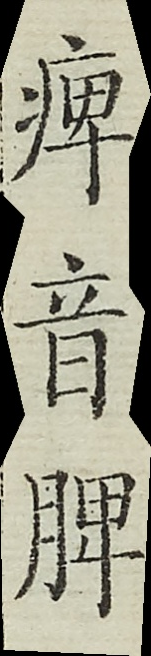痺音脾
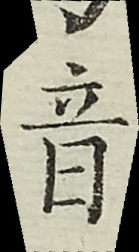音
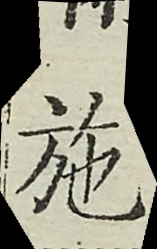施
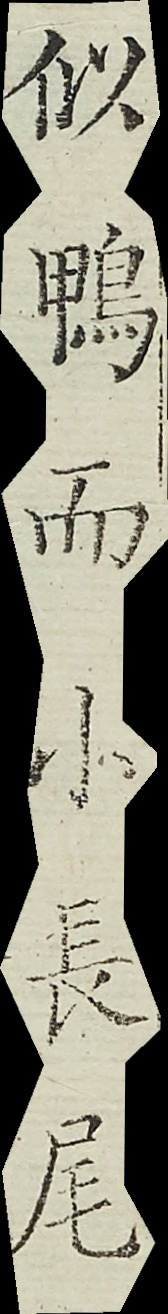似鴨而小長尾
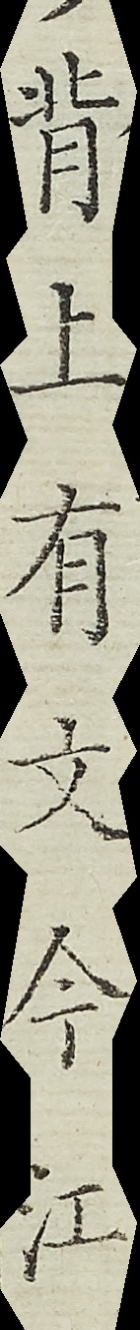背上有文今江
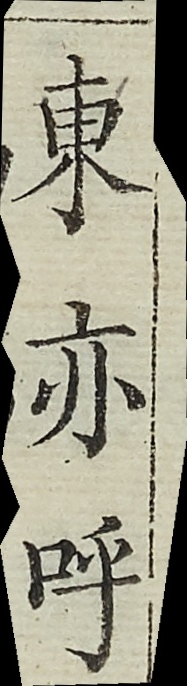東亦呼
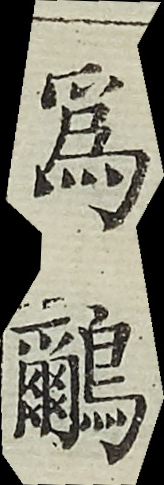為鸍
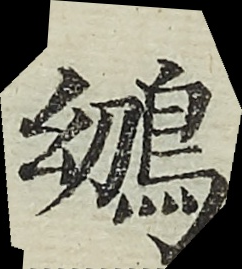鴢
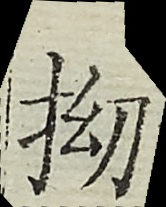拗
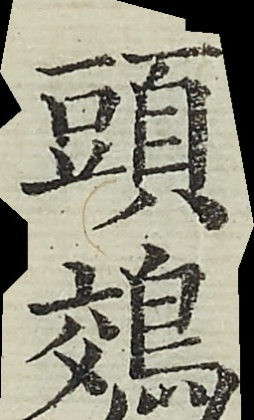頭鵁
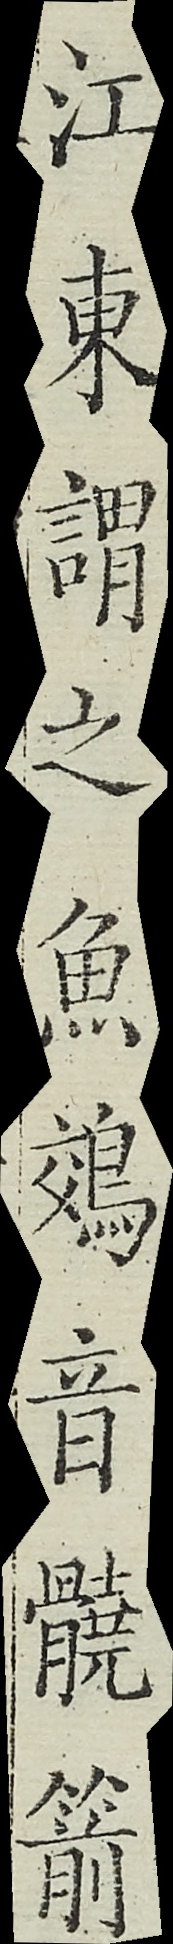江東謂之魚鵁音髐箭
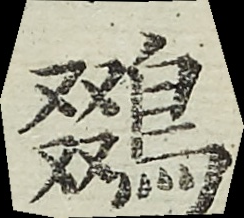鵽
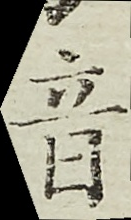音
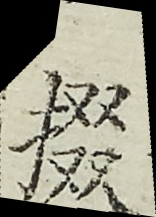掇
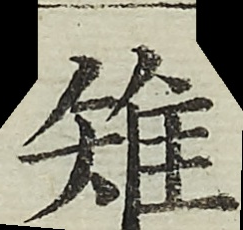雉
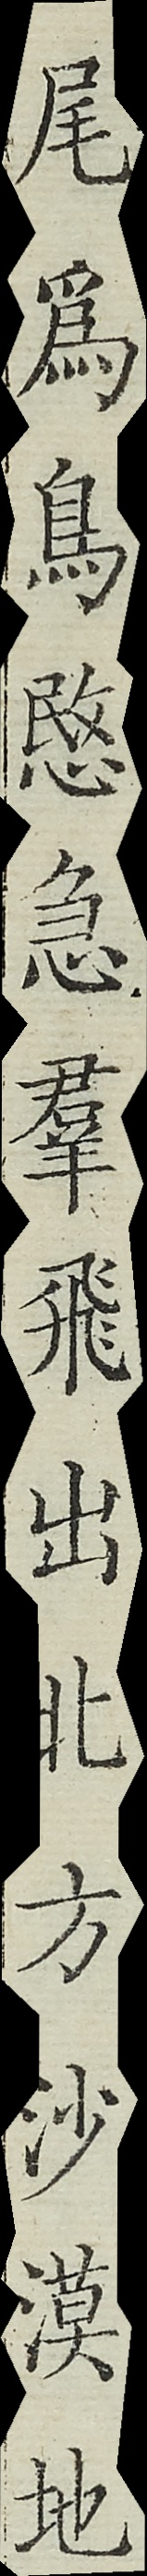尾為鳥愍急羣飛出北方沙漠地
